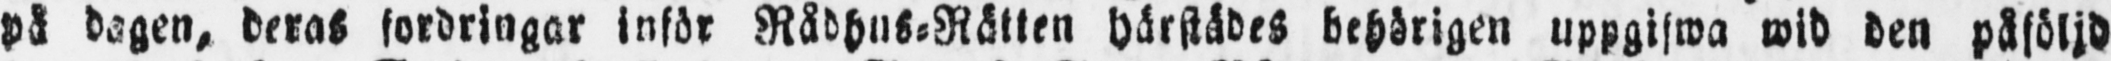på dagen, deras fordringar inför Rådhus-Rätten härstädes behörigen uppgifwa wid den påföljd
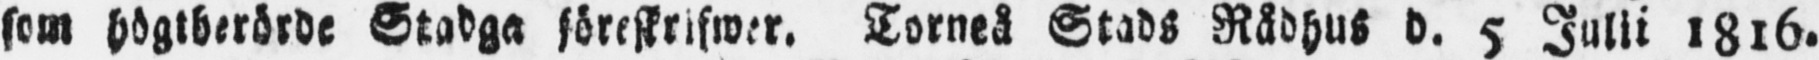som högtberörde Stadga föreskrifwer. Torneå Stads Rådhus d. 5 Julii 1816.
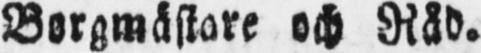Borgmästare och Råd.
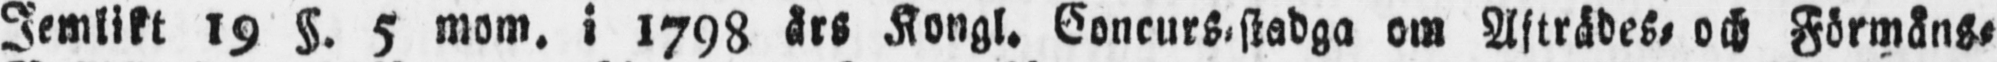Jemlikt 19 §. 5 mom. i 1798 års Kongl. Concurs-stadga om Afträdes- och Förmåns-
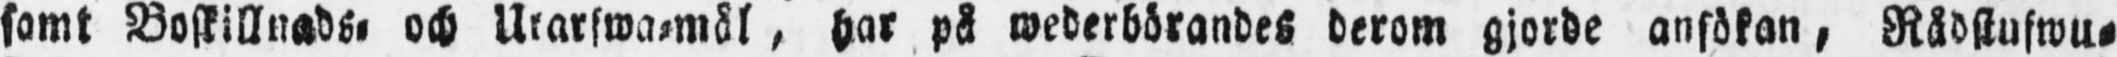samt Boskillnads- och Urarfwa-mål, har på wederbörandes derom gjorde ansökan, Rådstufwu-
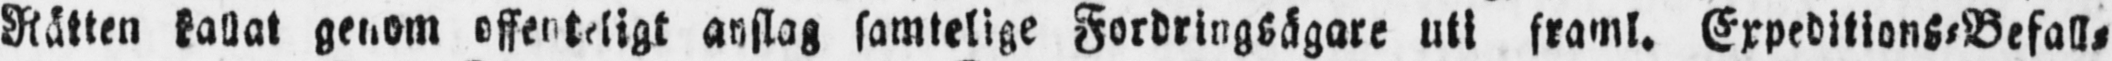Rätten kallat genom offenteligt anslag samtelige Fordringsägare uti framl. Expeditions-Befall-
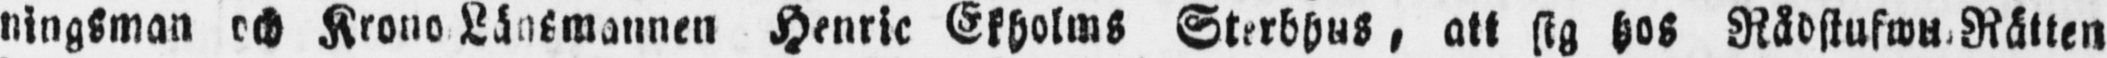ningsman och Krono Länsmannen Henric Ekholms Sterbhus , att sig hos Rådstufwu-Rätten
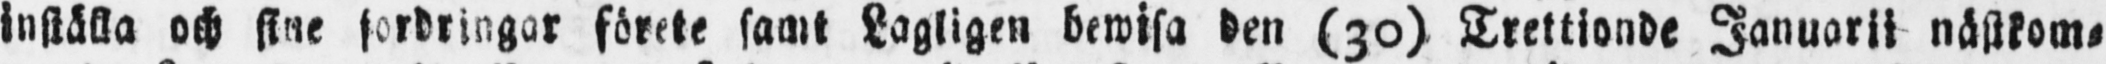inställa och sine fordringar förete samt Lagligen bewisa den (30) Trettionde Januarii nästkom-
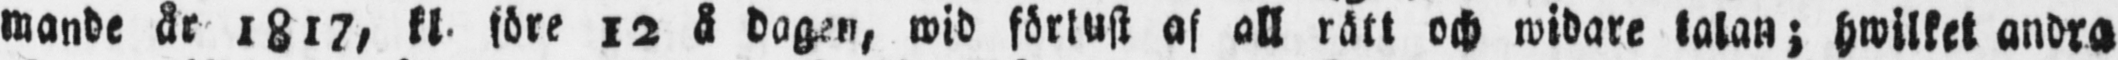mande år 1817, kl. före 12 å dagen, wid förlust af all rätt och widare talan; hwilket andra
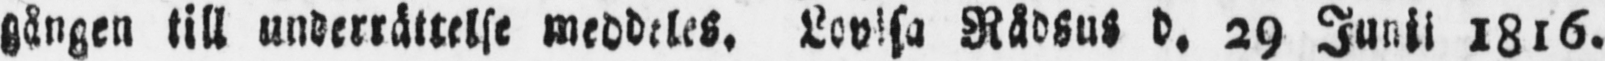gången till underrättelse meddeles. Lovisa Rådhus d. 29 Junii 1816.
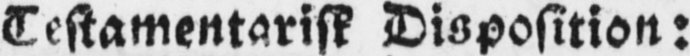Testamentarisk Disposition:
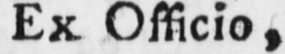Ex Officio,
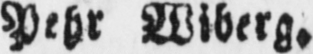Pehr Wiberg.
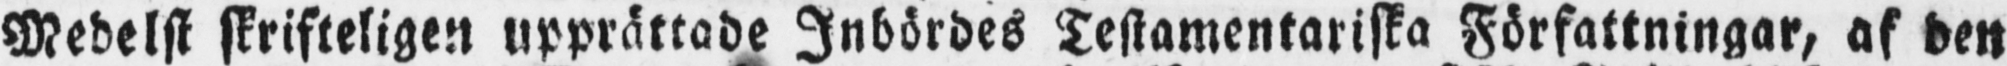Medelst skrifteligen upprättade Inbördes Testamentariska Författningar, af den
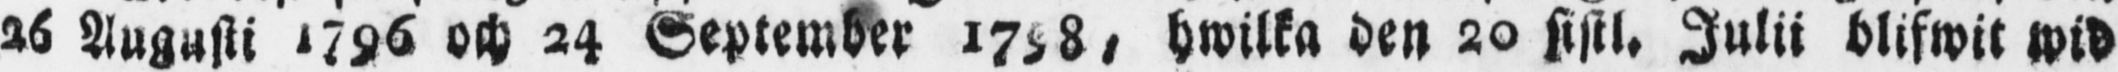26 Augusti 1796 och 24 September 1798, hwilka den 20 sistl. Julii blifwit wid
